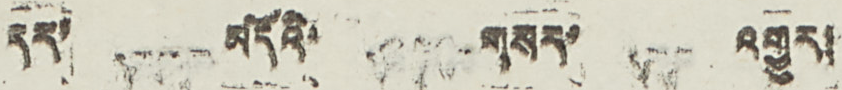དར་ མདོའི་ གསར་ འགྱུར།
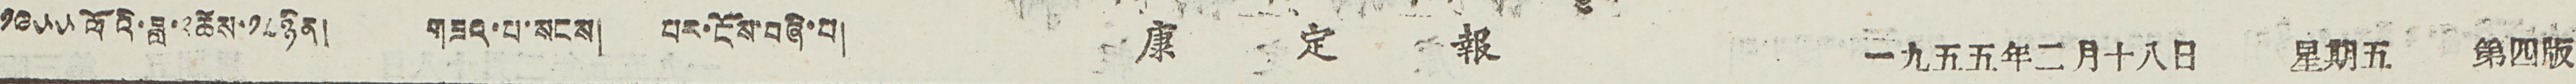༡༩༥༥ ལོའི་ཟླ་༢ཚེས་༡༨ཉིན། གཟའ་པ་སངས། པར་ངོས་བཞི་པ། 康 定 報 一九五五年二月十八日 星期五 第四版
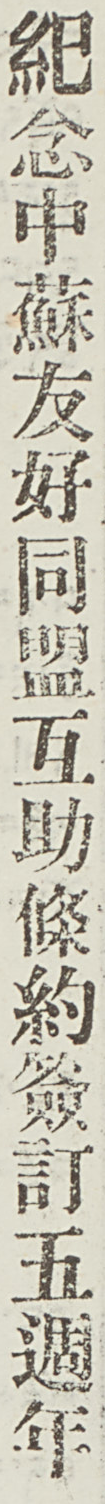紀念中蘇友好同盟互助條約簽訂五週年
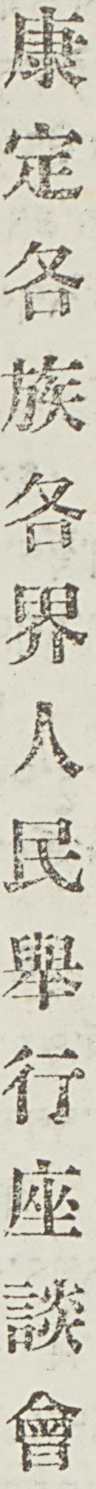康定各族各界人民舉行座談會
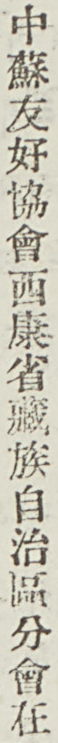中蘇友好協會西康省藏族自治區分會在
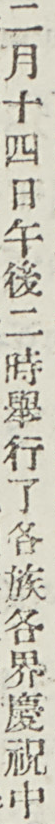二月十四日午後二時舉行了各族各界慶祝中
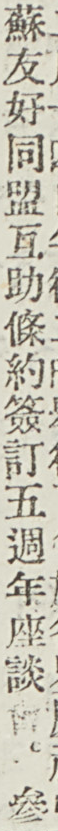蘇友好同盟互助條約簽訂五週年座談會。參
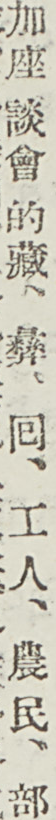加座 談會 的藏、彝、囘、工人、農民、部
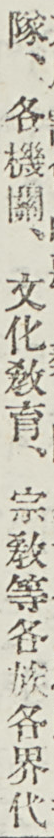隊、各機關、文化敎育、宗敎等各族各界代
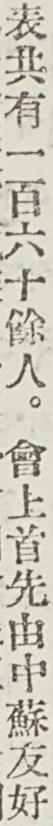表共有一百六十餘人。會上首先由中蘇友好
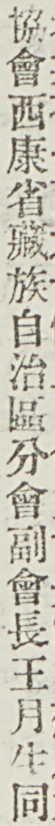協會西康省藏族自治區分會副會長王月生同
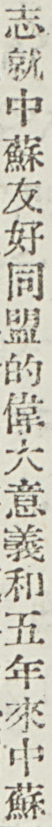志就中蘇友好同盟的偉大意義和五年來中蘇
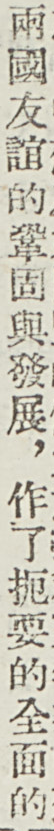兩國友誼的鞏固與發展，作了扼要的全面的
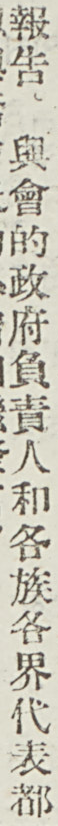報告，與會的政府負責人和各族各界代表都
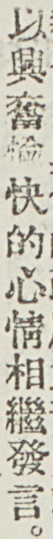以興奮愉快的心情相繼發言。
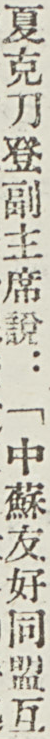夏克刀登副主席說：「中蘇友好同盟互
